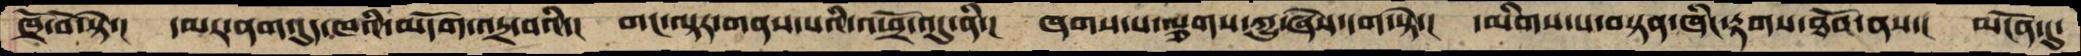ཁྲོ་བོ་སྟེ་།  དམར་ནག་དུད་ཁའི་མདོག་འདྲ་བའི་།  གང་ལྟར་གནས་པའི་འཕྲོ་འདུ་ནི་།  ཞགས་པ་ལྕགས་ཀྱུ་ཞེས་དག་སྟེ་།  དམིགས་པ་བསྟན་ཞིང་རྟགས་ཐོབ་ནས་།  མངོན་དུ་
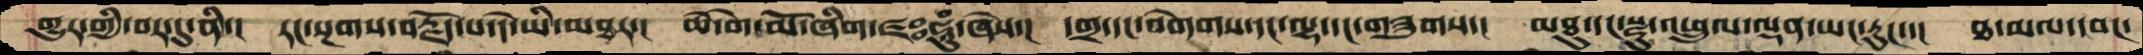གྱུར་གྱི་བར་དུ་ནི་།  རང་སྔགས་བརྗོད་པ་དེ་ཡི་མཐར་།  ཆེ་གེ་མོ་ཞིག་ཛཿཧཱུཾ་ཞེས་།  དགྲ་དང་བགེགས་དང་ལྷ་དང་གཟུགས་།  མཐུ་དང་སྫུ་འཕྲུལ་ལྡན་ཡང་རུང་་།  ཐ་མལ་དབང་
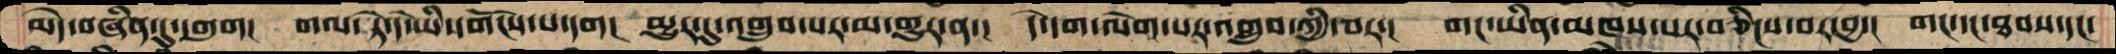མེད་བཞིན་དུ་དགུག།  གལ་ཏེ་དེ་ཡི་དགོངས་པ་དག།  མྱུར་དུ་འགྲུབ་པར་མ་གྱུར་ན་།  དེ་དག་ལེགས་པར་འགྲུབ་ཀྱི་བར་།  གང་ཡིན་མཁས་པར་བཅིངས་བར་བྱ་།  གང་དང་ཐབས་དང་
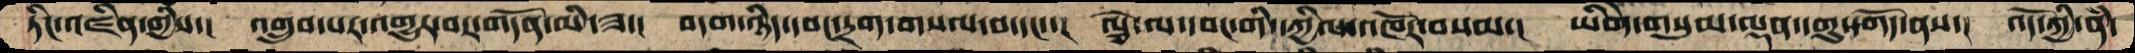ཏིང་འཛིན་གྱིས་།  འགྲུབ་པར་འགྱུར་བར་གདོན་མི་ཟ་།  བདག་ཉིད་དབང་དྲག་གསལ་བ་དང་་།  ལྕེ་ལ་དབང་གི་དཀྱིལ་འཁོར་བསམ་།  ཡིགེ་གསུམ་ལྡན་དགུ་དགོད་ནས་།  འོད་ཀྱི་ནཾ་
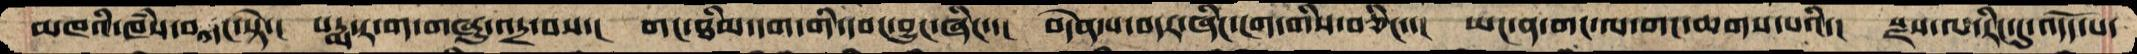མཁའི་ཁཾས་བཀང་སྟེ་།  པདྨ་ར་ག་གཞུ་འདྲ་བས་  གང་ཐིམ་དག་གི་དབང་བྱུང་ཞིང་་།  བདེན་པ་བདར་ཞིང་ངག་གིས་བཅིང་་།  ཡང་ན་གང་ལ་གང་ཆགས་པའི་།  སྫས་ལ་རིང་དུ་འདོད་པ་
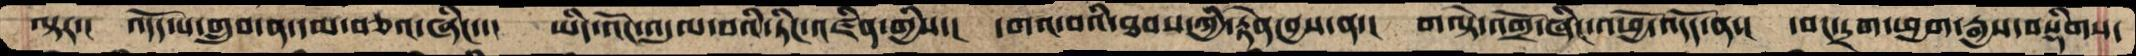ལྟར་།  འདོད་པ་གྲུབ་ན་དམ་བཅའ་ཞིང་་།  ཡིད་འོང་འདུལ་བའི་ཏིང་འཛིན་གྱིས་།  དགའ་བའི་ཐབས་ཀྱི་རྟེན་བྱས་ན་།  གལྟེ་འགྲོ་ཞིང་འཕྱོ་འདོད་ན་།  དབང་དྲག་ཕྱག་རྒྱས་བསྡིགས་
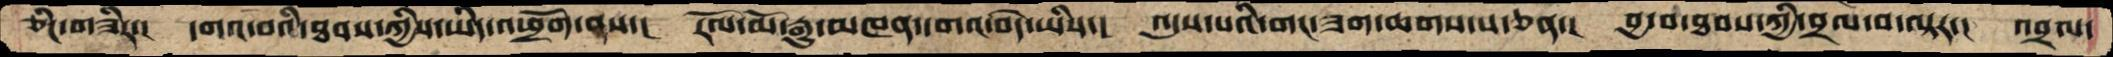ཅིང་གཟིར་།  དགའ་བའི་ཐབས་ཀྱིས་ཡིད་འཕྲོག་ནས་།  རོལ་མོ་རྒྱུ་མཁན་དགའ་བདེ་ཡིས་།  འདུས་པའི་གང་ཟག་ཆགས་པ་ཅན་།  བྱ་བ་ཐབས་ཀྱི་བྲལ་བ་ལྟར་།  འབྲལ་
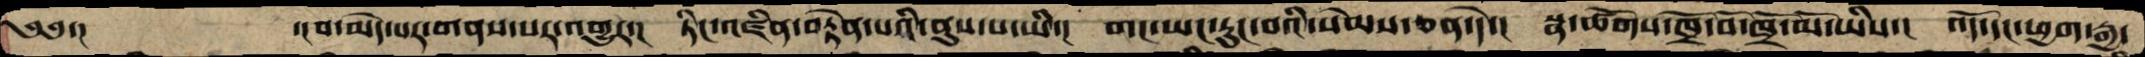༄༅་།    ་།བ་མེད་པར་གནས་པར་འགྱུར་།  ཏིང་འཛིན་བརྟེན་པའི་ནུས་པ་ཡི་།  གང་ཡང་རུང་བའི་སེམས་ཅན་དེ་།  སྣ་ཚོགས་ཁྲོ་བོ་ཁྲོ་མོ་ཡིས་།  འོད་དང་ཕྱག་རྒྱ་
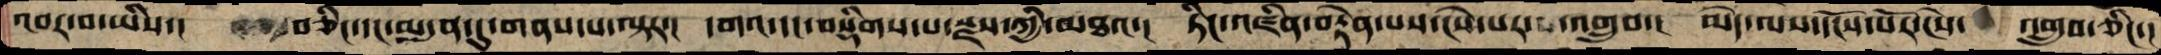འབར་བ་ཡིས་།   བཅིང་དང་མདུན་དུ་གནས་པ་ལྟར་།  དགའ་དང་བསྡིགས་པ་སྫས་ཀྱི་མཐའ་།  ཏིང་འཛིན་བརྟེན་པས་ངེས་པར་འགྲུབ་།  མེད་ལས་དངོས་པོར་ངེས་   འགྲུབ་ཅིང་།
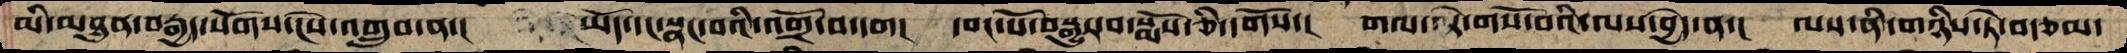མི་མཐུན་བརྒྱད་སོགས་ངེས་འགྲུབ་ན་།  ཡོད་དང་སྣང་བའི་འགྲོ་བ་དག།  དབང་པོ་བསྒྱུར་བ་སྨོས་ཅི་དགོས་།  གལ་ཏེ་གསོ་བའི་ལས་བྱེད་ན་།  ལས་ནི་གཉིས་ཏེ་བརྩམ་
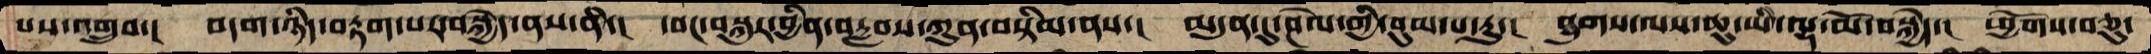པས་འགྲུབ་།  བདག་ཉིད་བརྟག་པར་བསྐྱེད་ནས་ནི་།  དབང་བསྐུར་བྱིན་བརླབས་ཀུན་བསྟིམ་ནས་།  མདུན་དུ་ཤེལ་གྱི་བུམ་པ་རུ་།   ཐུགས་ལས་ཆུ་ཡི་ལྷ་མོ་བསྐྱེད་།  ཕྱོགས་བཅུ་
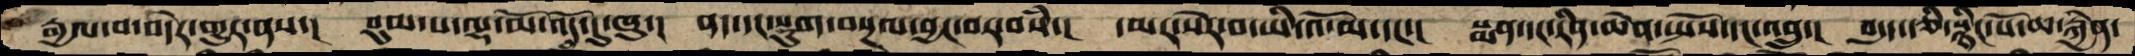རྒྱལ་བ་བདེར་གྱུར་ནས་།  བུམ་པ་ལྷ་མོ་འོད་དུ་ཞུ་།  ནད་དང་སྡུག་བསྔལ་བྱང་བར་བསཾ་།  དམར་སེར་བ་ཡི་འོ་མ་དང་།  སྨན་དང་རིན་ཆེན་སྤོས་དང་འབྲུ་།  བདུད་རྩི་སྙིང་པོ་ཆ་རྐྱེན་
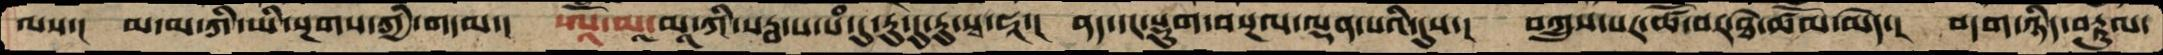ལས་།   མ་མ་ཀི་ཡི་སྔགས་ཀྱི་གདམ་།  ཨཱོཾ་མཱ་མཱཀི་སརྦ་པ་པཾ་དུ་རུ་དུ་རུ་སྭ་ཧཱ་།  ནད་དང་སྡུག་བསྔལ་ལྡན་པའི་དུས་།  བཀྲུས་པར་ཚོ་བར་ཐེ་ཚོམ་མེད་།  བདག་ཉིད་བརྟུལ་
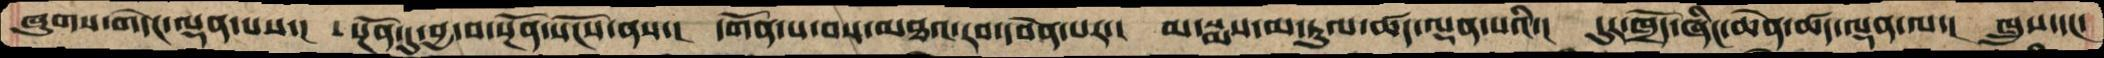ཞུགས་གདེང་ལྡན་པས་།  སྔོན་དུ་བྱ་བ་སྔོན་སོངས་ནས་།  དགོན་པ་བས་མཐའ་རབ་དབེན་པར་།  མ་སྨས་མ་ཏུལ་ཚད་ལྡན་པའི་།  དུར་ཁྲོད་ཞིང་ཆེན་ཚད་ལྡན་ལ་།  ཁྲུས་དང་
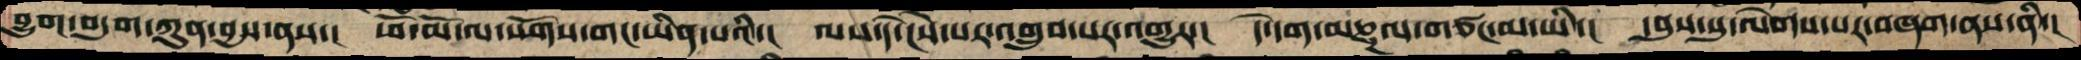བྱུག་བདུག་ཀུན་བྱས་ནས་།  ཕོ་མོ་ལ་སོགས་གང་ཡིན་པའི་།  ལས་དེ་ངེས་པར་འགྲུབ་པར་འགྱུར་།  དེ་དག་མཎྜལ་གཙང་མ་ཡི་།  དབུས་སུ་ལེགས་པར་བཞག་ནས་ནི་།
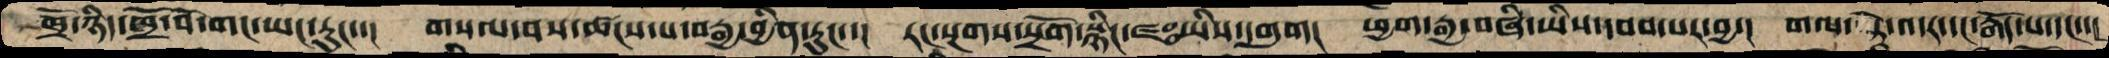ཁྲོ་ཉིད་ཁྲོ་བོ་གང་ཡང་རུང་་།  གསལ་བས་ཚངས་པ་བརྒྱ་བྱིན་རུང་་།  རང་སྔགས་སྲོག་སྙིང་ཛཿཡིས་དགུག།  ཕྱག་རྒྱ་བཞི་ཡིས་དབབ་པར་བྱ་།  གལ་ཏེ་འདར་དང་རྒོད་པ་དང་་།
